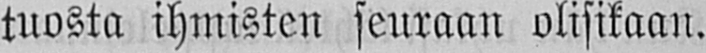tuosta ihmisten seuraan olisikaan.
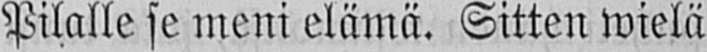Pilalle se meni elämä. Sitten wielä
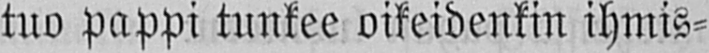tuo pappi tunkee oikeidenkin ihmis-
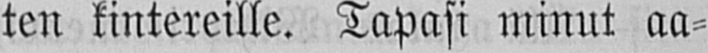ten kintereille. Tapasi minut aa-
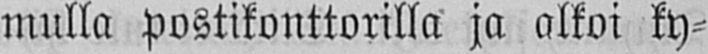mulla postikonttorilla ja alkoi ky-
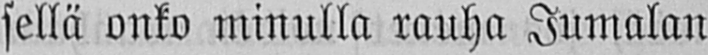sellä onko minulla rauha Jumalan
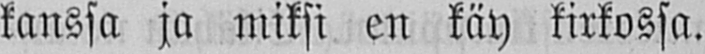kanssa ja miksi en käy kirkossa.
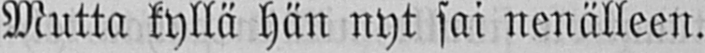Mutta kyllä hän nyt sai nenälleen.
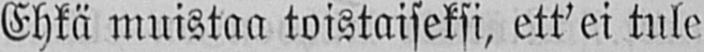Ehkä muistaa toistaiseksi, ett'ei tule
